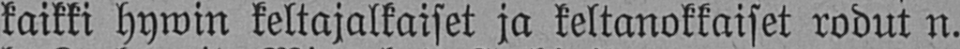kaikki hywin keltajalkaiset ja keltanokkaiset rodut n.
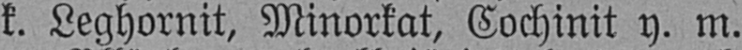k. Leghornit, Minorkat, Cochinit y. m.
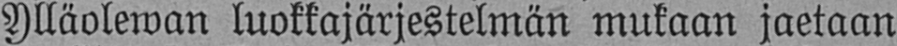Ylläolewan luokkajärjestelmän mukaan jaetaan
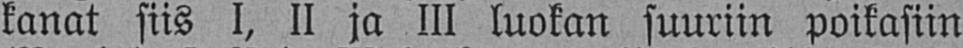kanat siis I, II ja III luokan suuriin poikasiin
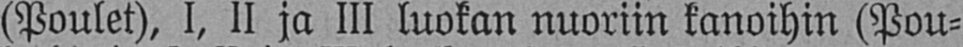(Poulet), I, II ja III luokan nuoriin kanoihin (Pou-
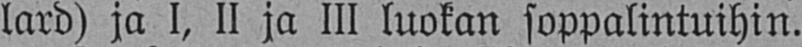lard) ja I, II ja III luokan soppalintuihin.
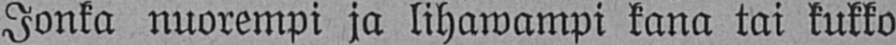Jonka nuorempi ja lihawampi kana tai kukko
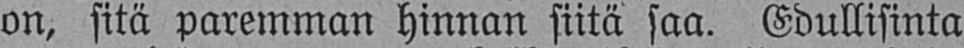on, sitä paremman hinnan siitä saa. Edullisinta
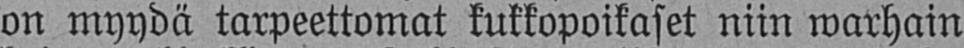on myydä tarpeettomat kukkopoikaset niin warhain
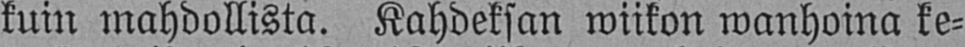kuin mahdollista. Kahdeksan wiikon wanhoina ke-
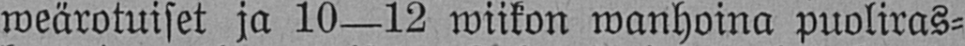weärotuiset ja 10—12 wiikon wanhoina puoliras-
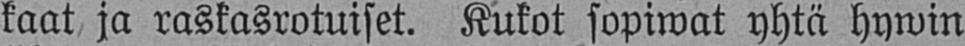kaat ja raskasrotuiset. Kukot sopiwat yhtä hywin
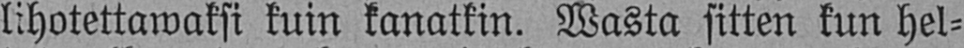lihotettawaksi kuin kanatkin. Wasta sitten kun hel-
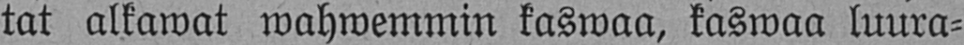tat alkawat wahwemmin kaswaa, kaswaa luura-
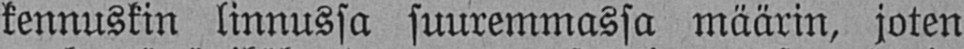kennuskin linnussa suuremmassa määrin, joten
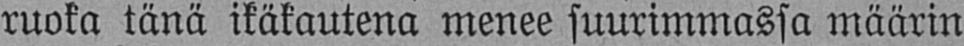ruoka tänä ikäkautena menee suurimmassa määrin
